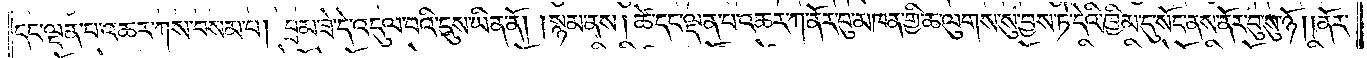དང་ལྡན་པ་འཆར་ཀས་བསམ་པ། བྲམ་ཟེ་དེ་འདུལ་བའི་དུས་ཡིན་ནོ། །སྙམ་ནས། ཚེ་དང་ལྡན་པ་འཆར་ཀ་ནོར་བུ་མཁན་གྱི་ཆ་ལུགས་སུ་བྱས་ཏེ་དེའི་ཁྱིམ་དུ་སོང་ནས་ནོར་བུ་སུ་ཉོ། །ནོར་
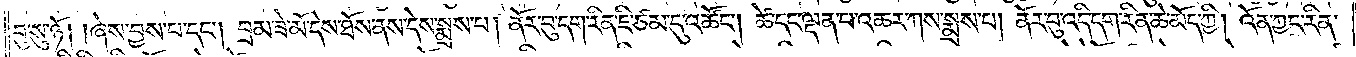བུ་སུ་ཉོ། །ཞེས་བྱས་པ་དང༌། བྲམ་ཟེ་མོ་དེས་ཐོས་ནས་དེས་སྨྲས་པ། ནོར་བུ་དག་རིན་ཇི་ཙམ་དུ་འཚོང༌། ཚེ་དང་ལྡན་པ་འཆར་ཀས་སྨྲས་པ། ནོར་བུ་འདི་དག་རིན་ཆེ་མོད་ཀྱི། འོན་ཀྱང་རིན་
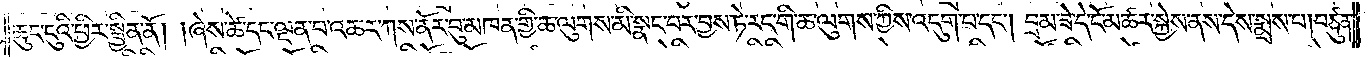ཆུང་ངུའི་ཕྱིར་སྦྱིན་ནོ། །ཞེས་ཚེ་དང་ལྡན་པ་འཆར་ཀས་ནོར་བུ་མཁན་གྱི་ཆ་ལུགས་མི་སྣང་བར་བྱས་ཏེ་རང་གི་ཆ་ལུགས་ཀྱིས་འདུག་པ་དང༌། བྲམ་ཟེ་དེ་ངོ་མཚར་སྐྱེས་ནས་དེས་སྨྲས་པ། བཙུན་
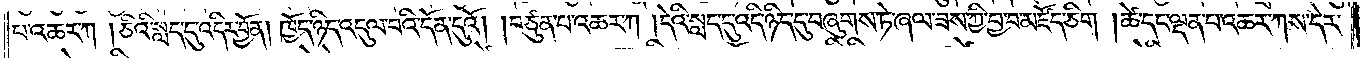པ་འཆར་ཀ །ཅིའི་སླད་དུ་འདིར་བྱོན། ཁྱོད་ཉིད་འདུལ་བའི་དོན་དུའོ། །བཙུན་པ་འཆར་ཀ །དེའི་སླད་དུ་འདི་ཉིད་དུ་བཞུགས་ཏེ་ཞལ་ཟས་ཀྱི་བྱ་བ་མཛོད་ཅིག །ཚེ་དང་ལྡན་པ་འཆར་ཀས་དེར་
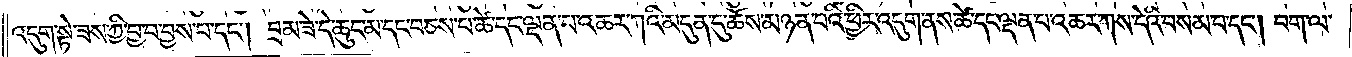འདུག་སྟེ་ཟས་ཀྱི་བྱ་བ་བྱས་པ་དང༌། བྲམ་ཟེ་དེ་ཆུང་མ་དང་བཅས་པ་ཚེ་དང་ལྡན་པ་འཆར་ཀའི་མདུན་དུ་ཆོས་མཉན་པའི་ཕྱིར་འདུག་ནས་ཚེ་དང་ལྡན་པ་འཆར་ཀས་དེའི་བསམ་པ་དང༌། བག་ལ་
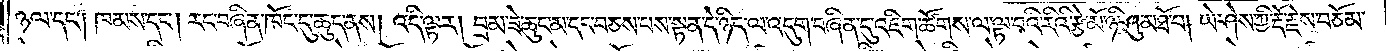ཉལ་དང༌། ཁམས་དང༌། རང་བཞིན་ཁོང་དུ་ཆུད་ནས། འདི་ལྟར། བྲམ་ཟེ་ཆུང་མ་དང་བཅས་པས་སྟན་དེ་ཉིད་ལ་འདུག་བཞིན་དུ་འཇིག་ཚོགས་ལ་ལྟ་བའི་རིའི་རྩེ་མོ་ཉི་ཤུ་མཐོ་བ། ཡེ་ཤེས་ཀྱི་རྡོ་རྗེས་བཅོམ་
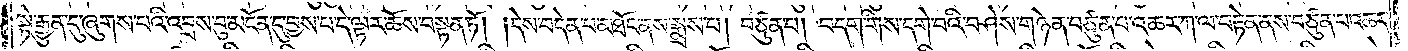སྟེ་རྒྱུན་དུ་ཞུགས་པའི་འབྲས་བུ་མངོན་དུ་བྱས་པ་དེ་ལྟར་ཆོས་བསྟན་ཏོ། །དེས་བདེན་པ་མཐོང་ནས་སྨྲས་པ། བཙུན་པ། བདག་གིས་དགེ་བའི་བཤེས་གཉེན་བཙུན་པ་འཆར་ཀ་ལ་བརྟེན་ནས་བཙུན་པ་འཆར་
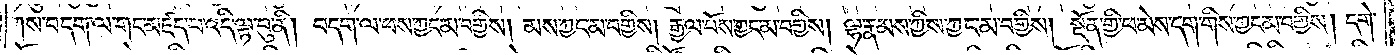ཀས་བདག་ལ་གང་མཛད་པ་འདི་ལྟ་བུ་ནི། བདག་ལ་ཕས་ཀྱང་མ་བགྱིས། མས་ཀྱང་མ་བགྱིས། རྒྱལ་པོས་ཀྱང་མ་བགྱིས། ལྷ་རྣམས་ཀྱིས་ཀྱང་མ་བགྱིས། སྔོན་གྱི་ཕ་མེས་དག་གིས་ཀྱང་མ་བགྱིས། དགེ་
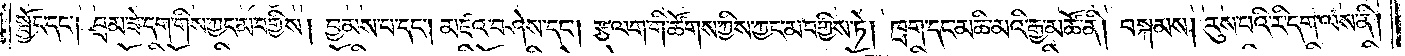སྦྱོང་དང༌། བྲམ་ཟེ་དག་གིས་ཀྱང་མ་བགྱིས། བྱམས་པ་དང༌། མཛའ་བཤེས་དང༌། རྩ་ལག་གི་ཚོགས་ཀྱིས་ཀྱང་མ་བགྱིས་ཏེ། ཁྲག་དང་མཆི་མའི་རྒྱ་མཚོ་ནི། བསྐམས། རུས་པའི་རི་དག་ལས་ནི།
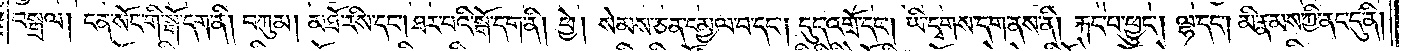བསྒྲལ། ངན་སོང་གི་སྒོ་དག་ནི། བཀུམ། མཐོ་རིས་དང༌། ཐར་པའི་སྒོ་དག་ནི། ཕྱེ། སེམས་ཅན་དམྱལ་བ་དང༌། དུད་འགྲོ་དང༌། ཡི་དྭགས་དག་ནས་ནི། རྐང་པ་ཕྱུང༌། ལྷ་དང༌། མི་རྣམས་ཀྱི་ནང་དུ་ནི།
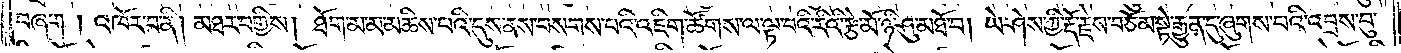བཞག །འཁོར་བ་ནི། མཐར་བགྱིས། ཐོག་མ་མ་མཆིས་པའི་དུས་ནས་བསགས་པའི་འཇིག་ཚོགས་ལ་ལྟ་བའི་རིའི་རྩེ་མོ་ཉི་ཤུ་མཐོ་བ། ཡེ་ཤེས་ཀྱི་རྡོ་རྗེས་བཅོམ་སྟེ་རྒྱུན་དུ་ཞུགས་པའི་འབྲས་བུ་
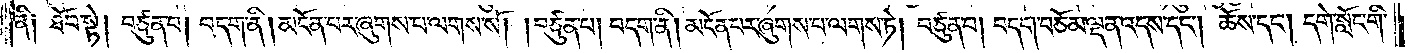ནི། ཐོབ་སྟེ། བཙུན་པ། བདག་ནི། མངོན་པར་ཞུགས་པ་ལགས་སོ། །བཙུན་པ། བདག་ནི། མངོན་པར་ཞུགས་པ་ལགས་ཏེ། བཙུན་པ། བདག་བཅོམ་ལྡན་འདས་དང༌། ཆོས་དང༌། དགེ་སློང་གི་
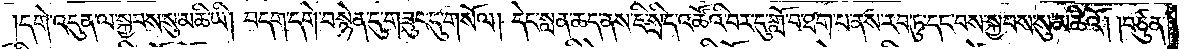དགེ་འདུན་ལ་སྐྱབས་སུ་མཆི་ཡི། བདག་དགེ་བསྙེན་དུ་གཟུང་དུ་གསོལ། དེང་སླན་ཆད་ནས་ཇི་སྲིད་འཚོའི་བར་དུ་གློ་བ་ཐག་པ་ནས་རབ་ཏུ་དང་བས་སྐྱབས་སུ་མཆིའོ། །བཙུན་
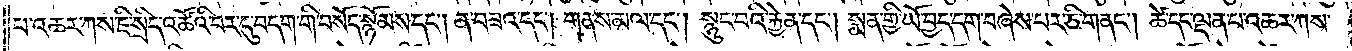པ་འཆར་ཀས་ཇི་སྲིད་འཚོའི་བར་དུ་བདག་གི་བསོད་སྙོམས་དང༌། ན་བཟའ་དང༌། གནས་མལ་དང༌། སྙུང་བའི་རྐྱེན་དང༌། སྨན་གྱི་ཡོ་བྱད་དག་བཞེས་པར་ཅི་གནང༌། ཚེ་དང་ལྡན་པ་འཆར་ཀས་
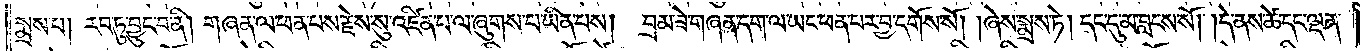སྨྲས་པ། རབ་ཏུ་བྱུང་བ་ནི། གཞན་ལ་ཕན་པས་རྗེས་སུ་འཛིན་པ་ལ་ཞུགས་པ་ཡིན་པས། བྲམ་ཟེ་གཞན་དག་ལ་ཡང་ཕན་པར་བྱ་དགོས་སོ། །ཞེས་སྨྲས་ཏེ། དང་དུ་མ་བླངས་སོ། །དེ་ནས་ཚེ་དང་ལྡན་
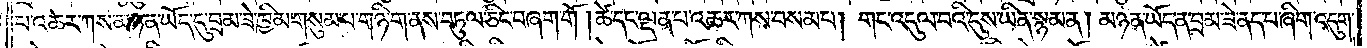པ་འཆར་ཀས་མཉན་ཡོད་དུ་བྲམ་ཟེ་ཁྱིམ་གསུམ་པ་གཉི་ག་ནས་བཏུལ་ཅིང་བཞག་གོ །ཚེ་དང་ལྡན་པ་འཆར་ཀས་བསམ་པ། གང་འདུལ་བའི་དུས་ཡིན་སྙམ་ན། མཉན་ཡོད་ན་བྲམ་ཟེ་ནད་པ་ཞིག་འདུག་
